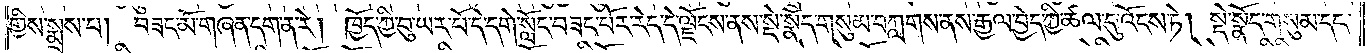གྱིས་སྨྲས་པ། བཟང་མོ་གཞན་དག་ན་རེ། ཁྱོད་ཀྱི་བུ་ཡར་པོ་དེ་དགེ་སློང་བཟང་པོར་རེད་དེ་ལྗོངས་ནས་སྡེ་སྣོད་གསུམ་བཀླགས་ནས་རྒྱལ་བྱེད་ཀྱི་ཚལ་དུ་འོངས་ཏེ། སྡེ་སྣོད་གསུམ་དང་
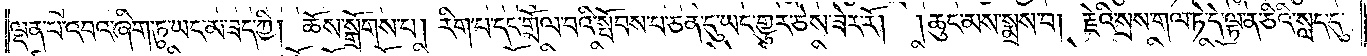ལྡན་པ་འབའ་ཞིག་ཏུ་ཡང་མ་ཟད་ཀྱི། ཆོས་སྒྲོགས་པ། རིག་པ་དང་གྲོལ་བའི་སྤོབས་པ་ཅན་དུ་ཡང་གྱུར་ཅེས་ཟེར་རོ། །ཆུང་མས་སྨྲས་པ། རྗེའི་སྲས་གལ་ཏེ་དེ་ལྟ་ན་ཅིའི་སླད་དུ་
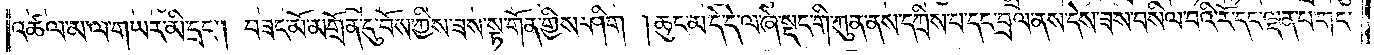འཚལ་མ་ལ་གཡར་མི་དྲང༌། བཟང་མོ་མགྲོན་དུ་བོས་ཀྱིས་ཟས་སྟ་གོན་གྱིས་ཤིག །ཆུང་མ་དེ་དེ་ལ་ཞེ་སྡང་གི་ཀུན་ནས་དཀྲིས་པ་དང་བྲལ་ནས་དེས་ཟས་བསིལ་བའི་རོ་དང་ལྡན་པ་གང་
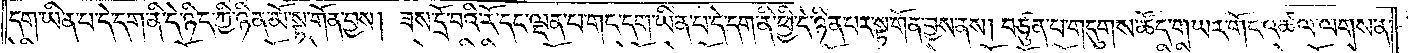དག་ཡིན་པ་དེ་དག་ནི་དེ་ཉིད་ཀྱི་ཉིན་མོ་སྟ་གོན་བྱས། ཟས་དྲོ་བའི་རོ་དང་ལྡན་པ་གང་དག་ཡིན་པ་དེ་དག་ནི་ཕྱི་དེ་ཉིན་པར་སྟ་གོན་བྱས་ནས། བཙུན་པ་གདུགས་ཚོད་གཡར་གོང་འཚལ་ལགས་ན་
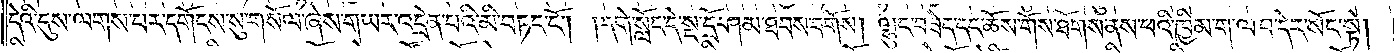དེའི་དུས་ལགས་པར་དགོངས་སུ་གསོལ་ཞེས་གཡར་འདྲེན་པའི་མི་བཏང་ངོ༌། །དགེ་སློང་དེ་སྔ་དྲོ་ཤམ་ཐབས་བགོས། ལྷུང་བཟེད་དང་ཆོས་གོས་ཐོགས་ནས་ཕའི་ཁྱིམ་ག་ལ་བ་དེར་སོང་སྟེ།
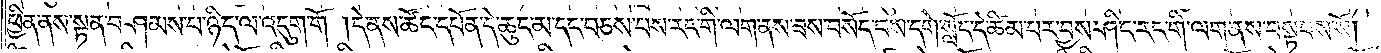ཕྱིན་ནས་སྟན་བཤམས་པ་ཉིད་ལ་འདུག་གོ །དེ་ནས་ཚོང་དཔོན་དེ་ཆུང་མ་དང་བཅས་པས་རང་གི་ལག་ནས་ཟས་བསོད་བས་དགེ་སློང་དེ་ཚིམ་པར་བྱས་ཤིང་རང་གི་ལག་ནས་བསྟབས་སོ། །
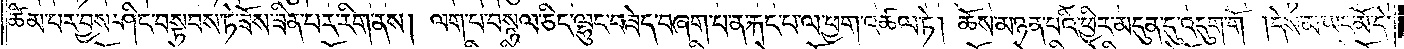ཚིམ་པར་བྱས་ཤིང་བསྟབས་ཏེ་ཟོས་ཟིན་པར་རིག་ནས། ལག་པ་བསྙལ་ཅིང་ལྷུང་བཟེད་བཞག་པ་ན་རྐང་པ་ལ་ཕྱག་འཚལ་ཏེ། ཆོས་མཉན་པའི་ཕྱིར་མདུན་དུ་འདུག་གོ །དེས་མ་ཡར་མོ་དེ་
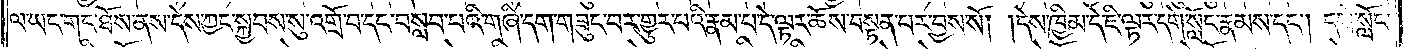ལ་ཡང་གང་ཐོས་ནས་དེས་ཀྱང་སྐྱབས་སུ་འགྲོ་བ་དང་བསླབ་པའི་གཞི་དག་གཟུང་བར་གྱུར་པའི་རྣམ་པ་དེ་ལྟར་ཆོས་བསྟན་པར་བྱས་སོ། །དེས་ཁྱིམ་དེ་ཇི་ལྟར་དགེ་སློང་རྣམས་དང༌། དགེ་སློང་
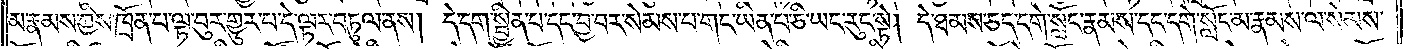མ་རྣམས་ཀྱིས་ཁྲོན་པ་ལྟ་བུར་གྱུར་པ་དེ་ལྟར་བཏུལ་ནས། དེ་དག་སྦྱིན་པ་དང་བྱ་བར་སེམས་པ་གང་ཡིན་པ་ཅི་ཡང་རུང་སྟེ། དེ་ཐམས་ཅད་དགེ་སློང་རྣམས་དང་དགེ་སློང་མ་རྣམས་ལ་སེམས་
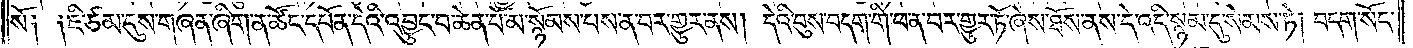སོ༑ ༑ཇི་ཙམ་དུས་གཞན་ཞིག་ན་ཚོང་དཔོན་དེའི་འབྱུང་བ་ཆེན་པོ་མ་སྙོམས་པས་ན་བར་གྱུར་ནས། དེའི་བུས་བདག་གི་ཕན་པར་གྱུར་ཏོ་ཞེས་ཐོས་ནས་དེ་འདི་སྙམ་དུ་སེམས་ཏེ། བདག་སོང་
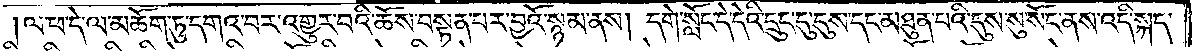།ལ་ཕ་དེ་ལ་མཆོག་ཏུ་དགའ་བར་འགྱུར་བའི་ཆོས་བསྟན་པར་བྱའོ་སྙམ་ནས། དགེ་སློང་དེ་དེའི་དྲུང་དུ་དུས་དང་མཐུན་པའི་དུས་སུ་སོང་ནས་འདི་སྐད་
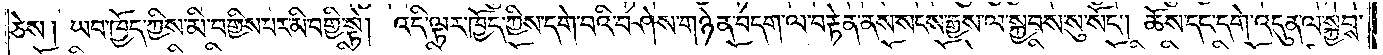ཅེས༑ ཡབ་ཁྱོད་ཀྱིས་མི་བགྱིས་པར་མི་བགྱི་སྟེ། འདི་ལྟར་ཁྱོད་ཀྱིས་དགེ་བའི་བཤེས་གཉེན་བདག་ལ་བརྟེན་ནས་སངས་རྒྱས་ལ་སྐྱབས་སུ་སོང༌། ཆོས་དང་དགེ་འདུན་ལ་སྐྱབས་
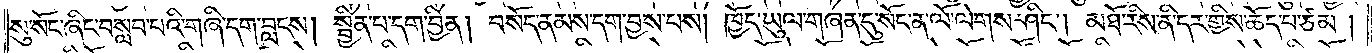སུ་སོང་ཞིང་བསླབ་པའི་གཞི་དག་བླངས། སྦྱིན་པ་དག་བྱིན། བསོད་ནམས་དག་བྱས་པས། ཁྱོད་ཡུལ་གཞན་དུ་སོང་ན་ལོ་ལེགས་ཤིང༌། མཐོ་རིས་ནི་དར་གྱིས་ཆོད་པ་ཙམ།
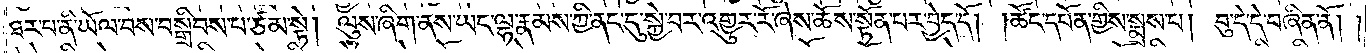ཐར་པ་ནི་ཡོལ་བས་བསྒྲིབས་པ་ཙམ་སྟེ། ལུས་ཞིག་ནས་ཡང་ལྷ་རྣམས་ཀྱི་ནང་དུ་སྐྱེ་བར་འགྱུར་རོ་ཞེས་ཆོས་སྟོན་པར་བྱེད་དོ། །ཚོང་དཔོན་གྱིས་སྨྲས་པ། བུ་དེ་དེ་བཞིན་ནོ། །
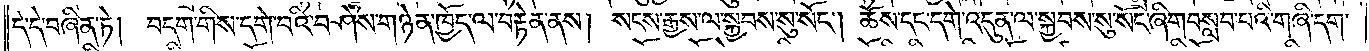དེ་དེ་བཞིན་ཏེ། བདག་གིས་དགེ་བའི་བཤེས་གཉེན་ཁྱོད་ལ་བརྟེན་ནས། སངས་རྒྱས་ལ་སྐྱབས་སུ་སོང༌། ཆོས་དང་དགེ་འདུན་ལ་སྐྱབས་སུ་སོང་ཞིག་བསླབ་པའི་གཞི་དག་
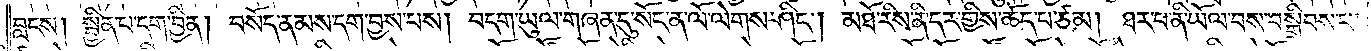བླངས། སྦྱིན་པ་དག་བྱིན། བསོད་ནམས་དག་བྱས་པས། བདག་ཡུལ་གཞན་དུ་སོང་ན་ལོ་ལེགས་ཤིང༌། མཐོ་རིས་ནི་དར་གྱིས་ཆོད་པ་ཙམ། ཐར་པ་ནི་ཡོལ་བས་བསྒྲིབས་པ་
